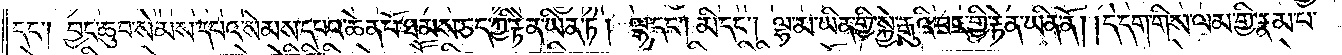དང༌། བྱང་ཆུབ་སེམས་དཔའ་སེམས་དཔའ་ཆེན་པོ་ཐམས་ཅད་ཀྱི་རྟེན་ཡིན་ཏེ། ལྷ་དང༌། མི་དང༌། ལྷ་མ་ཡིན་གྱི་སྐྱེ་རྒུའི་བར་གྱི་རྟེན་ཡིན་ནོ། །དེ་དག་གིས་ལམ་གྱི་ལམ་གྱི་རྣམ་པ་
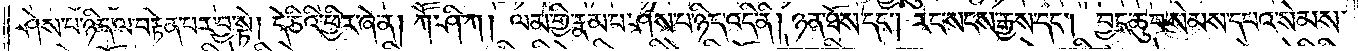ཤེས་པ་ཉིད་ལ་བརྟེན་པར་བྱ་སྟེ། དེ་ཅིའི་ཕྱིར་ཞེ་ན། ཀཽ་ཤི་ཀ། ལམ་གྱི་རྣམ་པ་ཤེས་པ་ཉིད་འདི་ནི། ཉན་ཐོས་དང༌། རང་སངས་རྒྱས་དང༌། བྱང་ཆུབ་སེམས་དཔའ་སེམས་
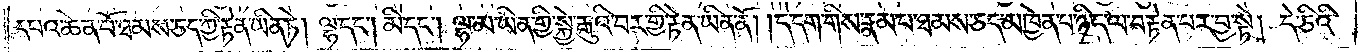དཔའ་ཆེན་པོ་ཐམས་ཅད་ཀྱི་རྟེན་ཡིན་ཏེ། ལྷ་དང༌། མི་དང༌། ལྷ་མ་ཡིན་གྱི་སྐྱེ་རྒུའི་བར་གྱི་རྟེན་ཡིན་ནོ། །དེ་དག་གིས་རྣམ་པ་ཐམས་ཅད་མཁྱེན་པ་ཉིད་ལ་བརྟེན་པར་བྱ་སྟེ། དེ་ཅིའི་
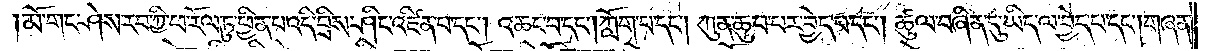མོ་གང་ཤེས་རབ་ཀྱི་ཕ་རོལ་ཏུ་ཕྱིན་པ་འདི་བྲིས་ཤིང་འཛིན་པ་དང༌། འཆང་བ་དང༌།ཀློག་པ་དང༌། ཀུན་ཆུབ་པར་བྱེད་པ་དང༌། ཚུལ་བཞིན་དུ་ཡིད་ལ་བྱེད་པ་དང༌། གཞན་
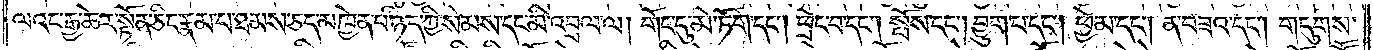ལའང་རྒྱ་ཆེར་སྟོན་ཅིང་རྣམ་པར་ཐམས་ཅད་མཁྱེན་པ་ཉིད་ཀྱི་སེམས་དང་མི་འབྲལ་ལ། གོང་དུ་མེ་ཏོག་དང༌། ཕྲེང་བ་དང༌། སྤོས་དང༌། བྱུག་པ་དང༌། ཕྱེ་མ་དང༌། ན་བཟའ་དང༌། གདུགས་
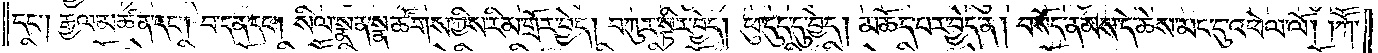དང༌། རྒྱལ་མཚན་དང༌། བ་དན་དང༌། སིལ་སྙན་སྣ་ཚོགས་ཀྱིས་རིམ་གྲོར་བྱེད། བཀུར་སྟིར་བྱེད། ཕུ་དུད་དུ་བྱེད། མཆོད་པར་བྱེད་ན། བསོད་ནམས་དེ་ཆེས་མང་དུ་འཕེལ་ལོ། །ཀཽ་
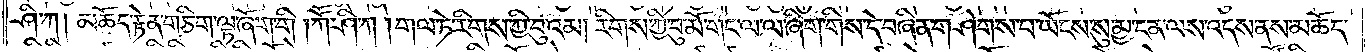ཤི་ཀ། མཆོད་རྟེན་གཅིག་ལྟ་ཞོག་གི །ཀཽ་ཤི་ཀ། གལ་ཏེ་རིགས་ཀྱི་བུའམ། རིགས་ཀྱི་བུ་མོ་གང་ལ་ལ་ཞིག་གིས་དེ་བཞིན་གཤེགས་པ་ཡོངས་སུ་མྱ་ངན་ལས་འདས་ནས་མཆོད་
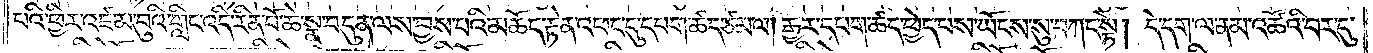པའི་ཕྱིར་འཛམ་བུའི་གླིང་འདི་རིན་པོ་ཆེ་སྣ་བདུན་ལས་བྱས་པའི་མཆོད་རྟེན་འཕང་དུ་དཔག་ཚད་ཙམ་ལ། རྒྱར་དཔག་ཚད་ཕྱེད་པས་ཡོངས་སུ་བཀང་སྟེ། དེ་དག་ལ་ནམ་འཚོའི་བར་དུ་
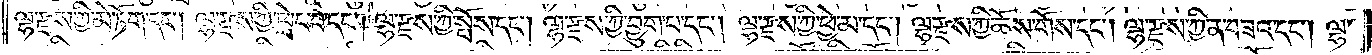ལྷ་རྫས་ཀྱི་མེ་ཏོག་དང༌། ལྷ་རྫས་ཀྱི་ཕྲེང་བ་དང༌། ལྷ་རྫས་ཀྱི་སྤོས་དང༌། ལྷ་རྫས་ཀྱི་བྱུག་པ་དང༌། ལྷ་རྫས་ཀྱི་ཕྱེ་མ་དང༌། ལྷ་རྫས་ཀྱི་ཆོས་གོས་དང༌། ལྷ་རྫས་ཀྱི་ན་བཟའ་དང༌། ལྷ་
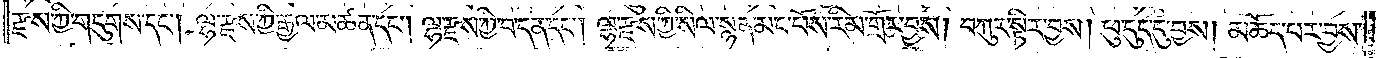རྫས་ཀྱི་གདུགས་དང༌། ལྷ་རྫས་ཀྱི་རྒྱལ་མཚན་དང༌། ལྷ་རྫས་ཀྱི་བ་དན་དང༌། ལྷ་རྫས་ཀྱི་སིལ་སྙན་མང་པོས་རིམ་གྲོར་བྱས། བཀུར་སྟིར་བྱས། ཕུ་དུད་དུ་བྱས། མཆོད་པར་བྱས་
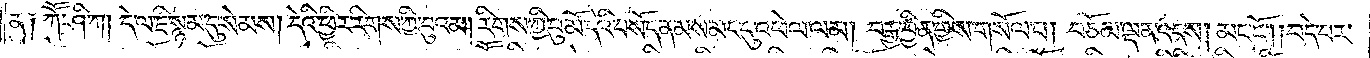ན༑ ཀཽ་ཤི་ཀ། དེ་ལ་ཇི་སྙམ་དུ་སེམས། དེའི་ཕྱིར་རིགས་ཀྱི་བུའམ། རིགས་ཀྱི་བུ་མོ་དེའི་བསོད་ནམས་མང་དུ་འཕེལ་ལམ། བརྒྱ་བྱིན་གྱིས་གསོལ་བ། བཅོམ་ལྡན་འདས། མང་ངོ༌། །བདེ་བར་
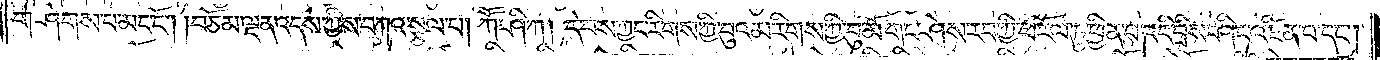གཤེགས་པ་མང་ངོ༌། །བཅོམ་ལྡན་འདས་ཀྱིས་བཀའ་སྩལ་པ། ཀཽ་ཤི་ཀ། དེ་བས་ཀྱང་རིགས་ཀྱི་བུའམ་རིགས་ཀྱི་བུ་མོ་གང་ཤེས་རབ་ཀྱི་ཕ་རོལ་ཏུ་ཕྱིན་པ་འདི་བྲིས་ཤིང་འཛིན་པ་དང༌།
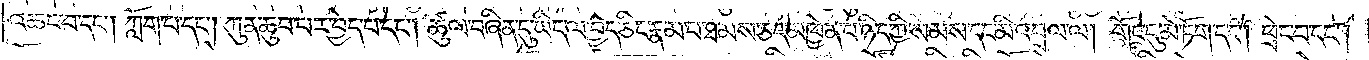འཆང་བ་དང༌། ཀློག་པ་དང༌། ཀུན་ཆུབ་པར་བྱེད་པ་དང༌། ཚུལ་བཞིན་དུ་ཡིད་ལ་བྱེད་ཅིང་རྣམ་པ་ཐམས་ཅད་མཁྱེན་པ་ཉིད་ཀྱི་སེམས་དང་མི་འབྲལ་ལ། གོང་དུ་མེ་ཏོག་དང༌། ཕྲེང་བ་དང༌།
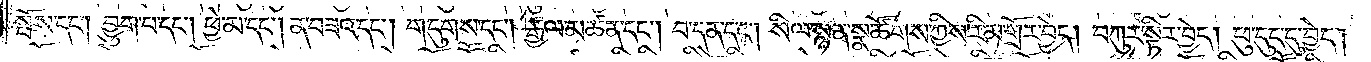སྤོས་དང༌། བྱུག་པ་དང༌། ཕྱེ་མ་དང༌། ན་བཟའ་དང༌། གདུགས་དང༌། རྒྱལ་མཚན་དང༌། བ་དན་དང༌། སིལ་སྙན་སྣ་ཚོགས་ཀྱིས་རིམ་གྲོར་བྱེད། བཀུར་སྟིར་བྱེད། ཕུ་དུད་དུ་བྱེད།
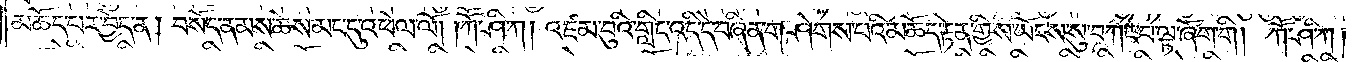མཆོད་པར་བྱེད་ན། བསོད་ནམས་ཆོས་མང་དུ་འཕེལ་ལོ། །ཀཽ་ཤི་ཀ། འཛམ་བུའི་གླིང་འདི་དེ་བཞིན་གཤེགས་པའི་མཆོད་རྟེན་གྱིས་ཡོངས་སུ་བཀང་པ་ལྟ་ཞོག་གི། ཀཽ་ཤི་ཀ།
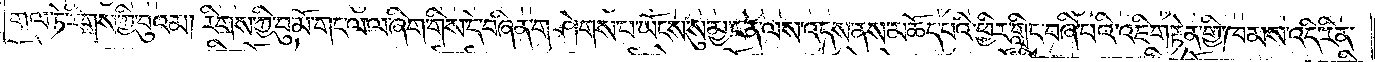གལ་ཏེ་རིགས་ཀྱི་བུའམ། རིགས་ཀྱི་བུ་མོ་གང་ལ་ལ་ཞིག་གིས་དེ་བཞིན་གཤེགས་པ་ཡོངས་སུ་མྱ་ངན་ལས་འདས་ནས་མཆོད་པའི་ཕྱིར་གླིང་བཞི་པའི་འཇིག་རྟེན་གྱི་ཁམས་འདི་རིན་
